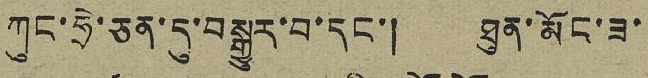ཀུང་ཧྲེ་ཅན་དུ་བསྒྱུར་བ་དང་། ཐུན་མོང་ཟ་
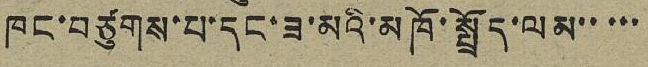ཁང་བཙུགས་པ་དང་ཟ་མའི་མགོ་སྤྲོད་ལམ་་ ་་་
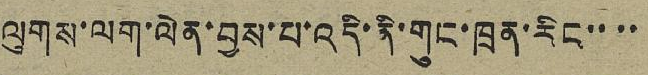ལུགས་ལག་ལེན་བྱས་པ་འདི་ནི་གུང་ཁྲན་རིང་་་་
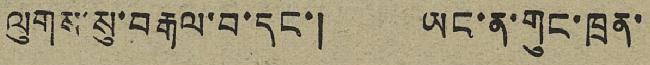ལུགས་སུ་བརྒལ་བ་དང་། ཡང་ན་གུང་ཁྲན་
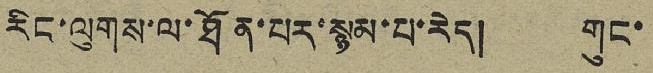རིང་ལུགས་ལ་ཐོན་པར་སྙམ་པ་རེད། གུང་
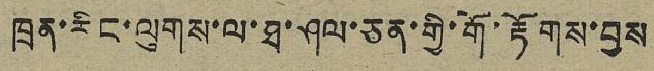ཁྲན་རིང་ལུགས་ལ་ཐ་ཤལ་ཅན་གྱི་གོ་རྟོགས་བྱས
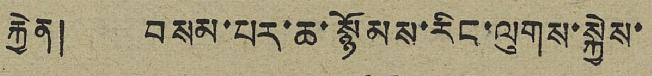རྐྱེན། བསམ་པར་ཆ་སྙོམས་རིང་ལུགས་སྐྱེས་
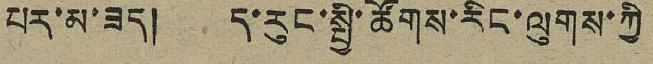པར་མ་ཟད། ད་རུང་སྤྱི་ཚོགས་རིང་ལུགས་ཀྱི
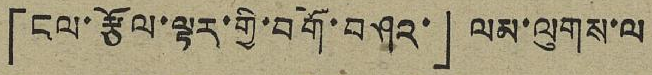「ངལ་རྩོལ་ལྟར་གྱི་བགོ་བཤའ་」 ལམ་ལུགས་ལ
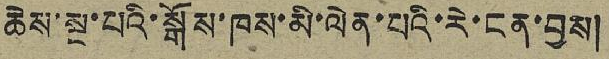ཆེས་སྔ་པའི་སྒོས་ཁས་མི་ལེན་པའི་རེ་ངན་བྱས།
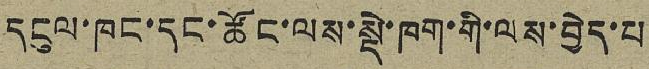དངུལ་ཁང་དང་ཚོང་ལས་སྡེ་ཁག་གི་ལས་བྱེད་པ
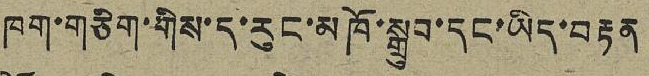ཁག་གཅིག་གིས་ད་རུང་མཁོ་སྒྲུབ་དང་ཡིད་བརྟན
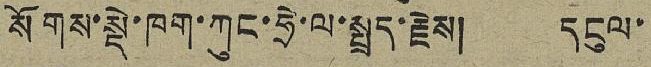སོགས་སྡེ་ཁག་ཀུང་ཧྲེ་ལ་སྤྲད་རྗེས། དངུལ་
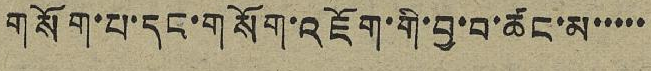གསོག་པ་དང་གསོག་འཇོག་གི་བྱ་བ་ཚང་མ་་་་་
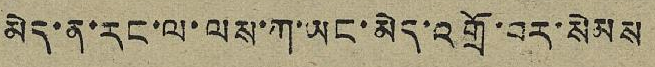མེད་ན་རང་ལ་ལས་ཀ་ཡང་མེད་འགྲོ་བར་སེམས
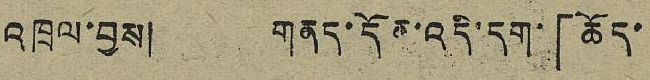འཁྲལ་བྱས། གནད་དོན་འདི་དག་「ཆོད་
